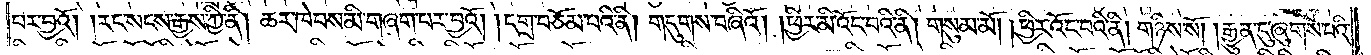པར་བྱའོ། །རང་སངས་རྒྱས་ཀྱི་ནི། ཆར་ཁེབས་མི་གཞག་པར་བྱའོ། །དགྲ་བཅོམ་པའི་ནི། གདུགས་བཞིའོ། །ཕྱིར་མི་འོང་བའི་ནི། གསུམ་མོ། །ཕྱིར་འོང་བའི་ནི། གཉིས་སོ། །རྒྱུན་དུ་ཞུགས་པའི་
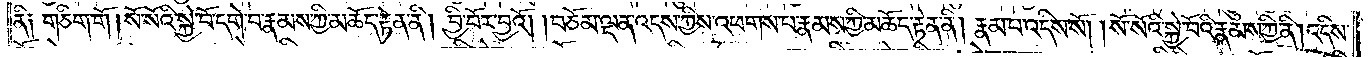ནི། གཅིག་གོ །སོ་སོའི་སྐྱེ་བོ་དགེ་བ་རྣམས་ཀྱི་མཆོད་རྟེན་ནི། བྱི་བོར་བྱའོ། །བཅོམ་ལྡན་འདས་ཀྱིས་འཕགས་པ་རྣམས་ཀྱི་མཆོད་རྟེན་ནི། རྣམ་པ་འདིས་སོ། །སོ་སོའི་སྐྱེ་བོའི་རྣམས་ཀྱི་ནི། འདིས་
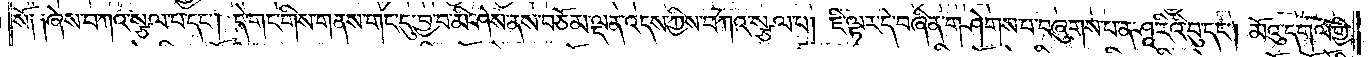སོ། །ཞེས་བཀའ་སྩལ་པ་དང༌། དེ་གང་གིས་གནས་གང་དུ་བྱ་བ་མི་ཤེས་ནས་བཅོམ་ལྡན་འདས་ཀྱིས་བཀའ་སྩལ་པ། ཇི་ལྟར་དེ་བཞིན་གཤེགས་པ་བཞུགས་པ་ན་ཤཱ་རིའི་བུ་དང༌། མོའུ་དགལ་གྱི་
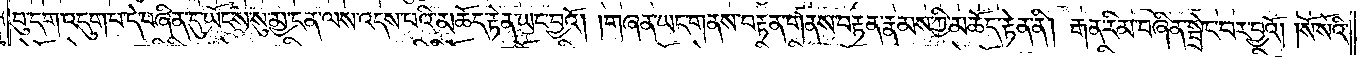བུ་དག་འདུག་པ་དེ་བཞིན་དུ་ཡོངས་སུ་མྱ་ངན་ལས་འདས་པའི་མཆོད་རྟེན་ཡང་བྱའོ། །གཞན་ཡང་གནས་བརྟན་གནས་བརྟན་རྣམས་ཀྱི་མཆོད་རྟེན་ནི། རྒན་རིམ་བཞིན་སྦྲེང་བར་བྱའོ། །སོ་སོའི་
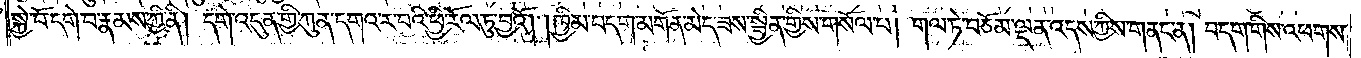སྐྱེ་བོ་དགེ་བ་རྣམས་ཀྱི་ནི། དགེ་འདུན་གྱི་ཀུན་དགའ་ར་བའི་ཕྱི་རོལ་ཏུ་བྱའོ། །ཁྱིམ་བདག་མགོན་མེད་ཟས་སྦྱིན་གྱིས་གསོལ་པ། གལ་ཏེ་བཅོམ་ལྡན་འདས་ཀྱིས་གནང་ན། བདག་གིས་འཕགས་
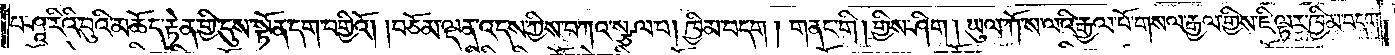པ་ཤཱ་རིའི་བུའི་མཆོད་རྟེན་གྱི་དུས་སྟོན་དག་བགྱིའོ། །བཅོམ་ལྡན་འདས་ཀྱིས་བཀའ་སྩལ་པ། ཁྱིམ་བདག །གནང་གི །གྱིས་ཤིག །ཡུལ་ཀོ་ས་ལའི་རྒྱལ་པོ་གསལ་རྒྱལ་གྱིས་ཇི་ལྟར་ཁྱིམ་བདག་
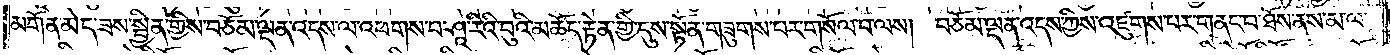མགོན་མེད་ཟས་སྦྱིན་གྱིས་བཅོམ་ལྡན་འདས་ལ་འཕགས་པ་ཤཱ་རིའི་བུའི་མཆོད་རྟེན་གྱི་དུས་སྟོན་གཟུགས་པར་གསོལ་པ་ལས། བཅོམ་ལྡན་འདས་ཀྱིས་འཛུགས་པར་གནང་བ་ཐོས་ནས་མ་ལ་
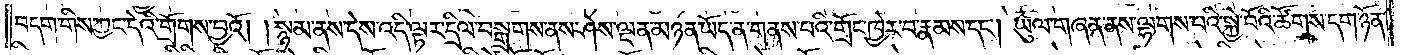བདག་གིས་ཀྱང་དེའི་གྲོགས་བྱའོ། །སྙམ་ནས་དེས་འདི་ལྟར་དྲིལ་བསྒྲགས་ནས་ཤེས་ལྡན་མཉན་ཡོད་ན་གནས་པའི་གྲོང་ཁྱེར་བ་རྣམས་དང༌། ཡུལ་གཞན་ནས་ལྷགས་པའི་སྐྱེ་བོའི་ཚོགས་དག་ཉོན་
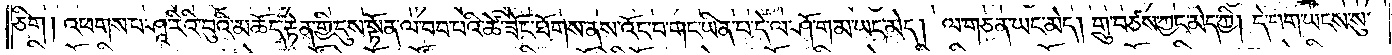ཅིག །འཕགས་པ་ཤཱ་རིའི་བུའི་མཆོད་རྟེན་གྱི་དུས་སྟོན་ལ་བབ་པའི་ཚེ་ཟོང་ཐོགས་ནས་འོང་བ་གང་ཡིན་པ་དེ་ལ་ཤོ་གམ་ཡང་མེད། ལ་གཅན་ཡང་མེད། གྲུ་བཙས་ཀྱང་མེད་ཀྱི། དེ་བག་ཡངས་སུ་
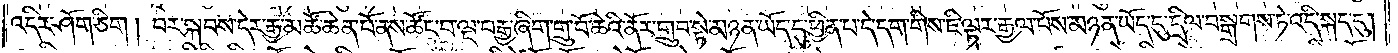འདིར་ཤོག་ཅིག །བར་སྐབས་དེར་རྒྱ་མཚོ་ཆེན་པོ་ནས་ཚོང་བ་ལྔ་བརྒྱ་ཞིག་གྲུ་བོ་ཆེའི་ནོར་གྲུབ་སྟེ་མཉན་ཡོད་དུ་ཕྱིན་པ་དེ་དག་གིས་ཇི་ལྟར་རྒྱལ་པོས་མཉན་ཡོད་དུ་དྲིལ་བསྒྲགས་ཏེ་འདི་སྐད་དུ།
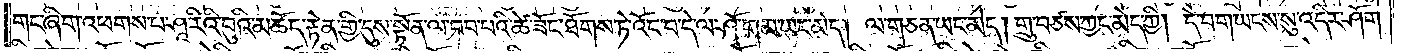གང་ཞིག་འཕགས་པ་ཤཱ་རིའི་བུའི་མཆོད་རྟེན་གྱི་དུས་སྟོན་ལ་བབ་པའི་ཚེ་ཟོང་ཐོགས་ཏེ་འོང་བ་དེ་ལ་ཤོ་གམ་ཡང་མེད། ལ་གཅན་ཡང་མེད། གྲུ་བཙས་ཀྱང་མེད་ཀྱི། དེ་བག་ཡངས་སུ་འདིར་ཤོག་
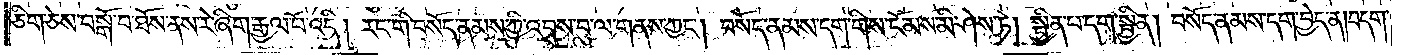ཅིག་ཅེས་བསྒོ་བ་ཐོས་ནས་རེ་ཞིག་རྒྱལ་པོ་འདི། རང་གི་བསོད་ནམས་ཀྱི་འབྲས་བུ་ལ་གནས་ཀྱང༌། བསོད་ནམས་དག་གིས་ངོམས་མི་ཤེས་ཏེ། སྦྱིན་པ་དག་སྦྱིན། བསོད་ནམས་དག་བྱེད་ན། བདག་
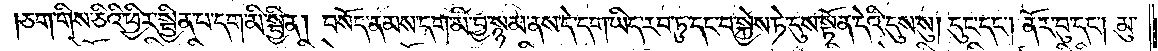ཅག་གིས་ཅིའི་ཕྱིར་སྦྱིན་པ་དག་མི་སྦྱིན། བསོད་ནམས་དག་མི་བྱ་སྙམ་ནས་དེ་དག་ཡིད་རབ་ཏུ་དང་བ་སྐྱེས་ཏེ་དུས་སྟོན་དེའི་དུས་སུ། དུང་དང༌། ནོར་བུ་དང༌། མུ་
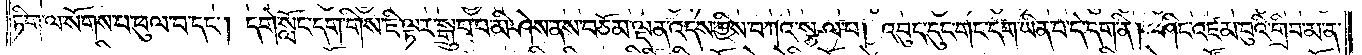ཏིག་ལ་སོགས་པ་ཕུལ་བ་དང༌། དགེ་སློང་དག་གིས་ཇི་ལྟར་སྒྲུབ་པ་མི་ཤེས་ནས་བཅོམ་ལྡན་འདས་ཀྱིས་བཀའ་སྩལ་པ། འབུད་དུང་གང་དག་ཡིན་པ་དེ་དག་ནི། ཤིང་འཛམ་བུའི་གྲིབ་མ་ན་
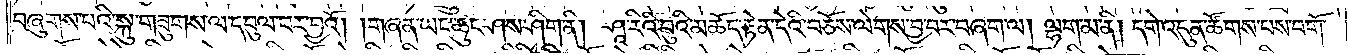བཞུགས་པའི་སྐུ་གཟུགས་ལ་དབུལ་བར་བྱའོ། །གཞན་ཡང་ཆུང་ཤས་ཤིག་ནི། ཤཱ་རིའི་བུའི་མཆོད་རྟེན་དེའི་བཅོས་ལེགས་བྱ་བར་བཞག་ལ། ལྷག་མ་ནི། དགེ་འདུན་ཚོགས་པས་བགོ་
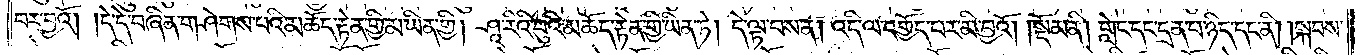བར་བྱའོ། །དེ་དེ་བཞིན་གཤེགས་པའི་མཆོད་རྟེན་གྱི་མ་ཡིན་གྱི། ཤཱ་རིའི་བུའི་མཆོད་རྟེན་གྱི་ཡིན་ཏེ། དེ་ལྟ་བས་ན། འདི་ལ་འགྱོད་པར་མི་བྱའོ།    །སྡོམ་ནི། གླེང་དང་དྲན་པ་ཉིད་དང་ནི། །སྐབས་
